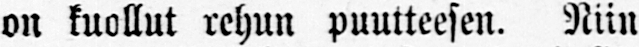on kuollut rehun puutteesen. Niin
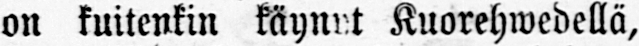on kuitenkin käynyt Kuorehwedellä,
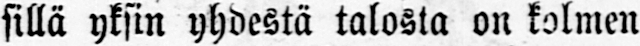sillä yksin yhdestä talosta on kolmen
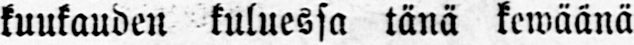kuukauden kuluessa tänä kewäänä
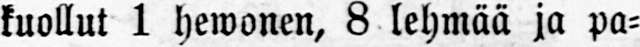kuollut 1 hewonen, 8 lehmää ja pa-
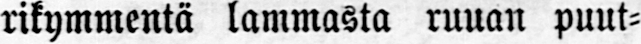rikymmentä lammasta ruuan puut-
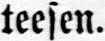teesen.
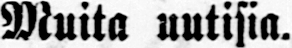Muita uutisia.
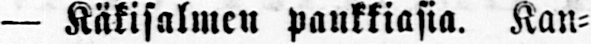— Käkisalmen pankkiasia. Kan-
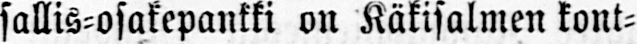sallis-osakepankki on Käkisalmen kont-
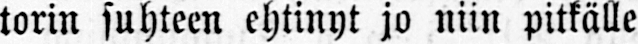torin suhteen ehtinyt jo niin pitkälle
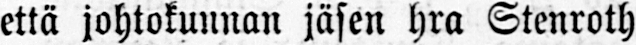että johtokunnan jäsen hra Stenroth
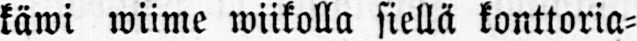käwi wiime wiikolla siellä konttoria-
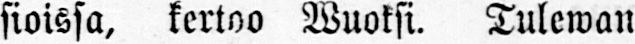sioissa, kertoo Wuoksi. Tulewan
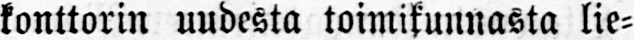konttorin uudesta toimikunnasta lie-
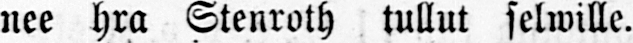nee hra Stenroth tullut selwille.
